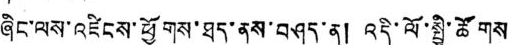ཞིང་ལས་འཛིངས་ཕྱོགས་ཐད་ནས་བཤད་ན། འདི་ལོ་སྤྱི་ཚོགས
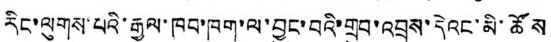རིང་ལུགས་པའི་རྒྱལ་ཁབ་ཁག་ལ་བྱུང་བའི་གྲུབ་འབྲས་དེའང་མི་ཚོས
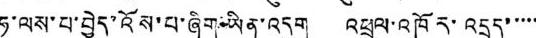ཧ་ལས་པ་བྱེད་འོས་པ་ཞིག་ཡིན་འདུག འཕྲུལ་འཁོར་འདྲུད་་་་་
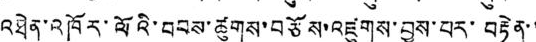འཐེན་འཁོར་ལོའི་བབས་ཚུགས་བཅོས་འཛུགས་བྱས་པར་བརྟེན་་
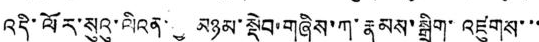འདི་ལོར་སུའུ་ལིའན་  མཉམ་སྡེབ་གཞིས་ཀ་རྣམས་སྒྲིག་འཛུགས་་་
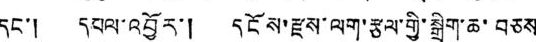དང་། དཔལ་འབྱོར་། དངོས་རྫས་ལག་རྩལ་གྱི་སྒྲིག་ཆ་བཅས
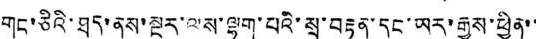གང་ཅིའི་ཐད་ནས་སྔར་ལས་ལྷག་པའི་སྲ་བརྟན་དང་ཡར་རྒྱས་ཕྱིན་་
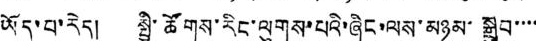ཡོད་པ་རེད། སྤྱི་ཚོགས་རིང་ལུགས་པའི་ཞིང་ལས་མཉམ་སྒྲུབ་་་་
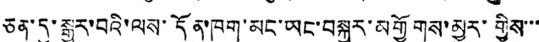ཅན་དུ་སྒྱུར་བའི་ལས་དོན་ཁག་མང་ཡང་བསྐྱར་མགྱོགས་མྱུར་གྱིས་་་
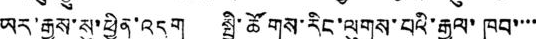ཡར་རྒྱས་སུ་ཕྱིན་འདུག སྤྱི་ཚོགས་རིང་ལུགས་པའི་རྒྱལ་ཁབ་་་་
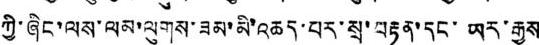ཀྱི་ཞིང་ལས་ལམ་ལུགས་ཟམ་མི་འཆད་པར་སྲ་བརྟན་དང་ཡར་རྒྱས
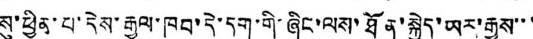སུ་ཕྱིན་པ་དེས་རྒྱལ་ཁབ་དེ་དག་གི་ཞིང་ལས་ཐོན་སྐྱེད་ཡར་རྒྱས་་་
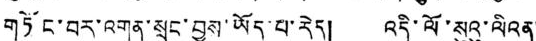གཏོང་བར་འགན་སྲུང་བྱས་ཡོད་པ་རེད། འདི་ལོ་སུའུ་ལིའན་
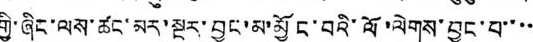གྱི་ཞིང་ལས་ཚང་མར་སྔར་བྱུང་མ་མྱོང་བའི་ལོ་ལེགས་བྱུང་བ་་་་
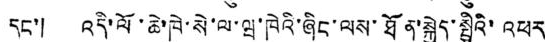དང་། འདི་ལོ་ཆེ་ཁེ་སེ་ལོ་ཝ་ཁེའི་ཞིང་ལས་ཐོན་སྐྱེད་སྤྱིའི་འཕར
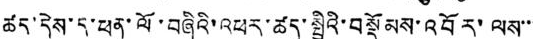ཚད་དེས་ད་ཕན་ལོ་བཞིའི་འཕར་ཚད་སྤྱིའི་བསྡོམས་འབོར་ལས་་་
